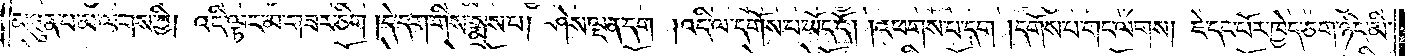མཐུན་པ་མ་ལགས་ཀྱི། འདི་ལྟར་མ་གཟར་ཅིག །དེ་དག་གིས་སྨྲས་པ། ཤེས་ལྡན་དག །འདི་ལ་དགོས་པ་ཡོད་དོ། །འཕགས་པ་དག །དགོས་པ་གང་ལགས། ཇེ་དང་པོར་ཁྱེད་ཅག་ཉིད་མི་
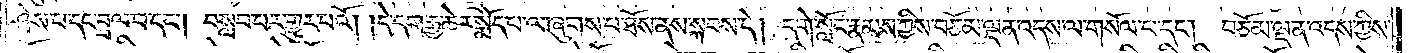ཤེས་པ་དང་བྲལ་བ་དང༌། བསླབ་པར་གྱུར་པའོ། །དེ་དག་རྒྱ་ཆེར་སྨོད་པ་ལ་ཞུགས་པ་ཐོས་ནས་སྐབས་དེ། དགེ་སློང་རྣམས་ཀྱིས་བཅོམ་ལྡན་འདས་ལ་གསོལ་པ་དང༌། བཅོམ་ལྡན་འདས་ཀྱིས་
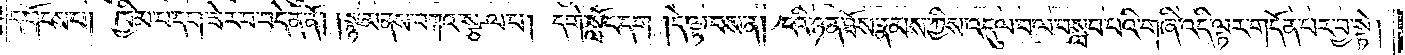དགོངས་པ། ཁྱིམ་པ་དག་ཟེར་བ་བདེན་ནོ། །སྙམ་ནས་བཀའ་སྩལ་པ། དགེ་སློང་དག །དེ་ལྟ་བས་ན། ངའི་ཉན་ཐོས་རྣམས་ཀྱིས་འདུལ་བ་ལ་བསླབ་པའི་གཞི་འདི་ལྟར་གདོན་པར་བྱ་སྟེ།
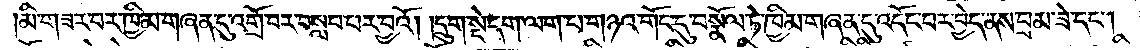མི་གཟར་བར་ཁྱིམ་གཞན་དུ་འགྲོ་བར་བསླབ་པར་བྱའོ། །དྲུག་སྡེ་དག་ལག་པ་གཉའ་གོང་དུ་བསྣོལ་ཏེ་ཁྱིམ་གཞན་དུ་འདོང་བར་བྱེད་ནས་བྲམ་ཟེ་དང༌།
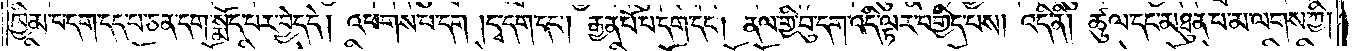ཁྱིམ་བདག་དད་པ་ཅན་དག་སྨོད་པར་བྱེད་དེ། འཕགས་པ་དག །དྭ་དག་དང༌། རྒྱན་པོ་པ་དག་དང༌། ནལ་གྱི་བུ་དག་འདི་ལྟར་བགྱིད་པས། འདི་ནི། ཚུལ་དང་མཐུན་པ་མ་ལགས་ཀྱི།
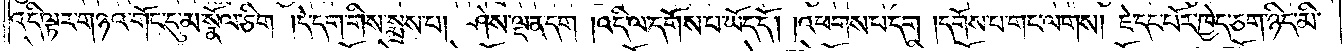འདི་ལྟར་གཉའ་གོང་དུ་མ་སྣོལ་ཅིག །དེ་དག་གིས་སྨྲས་པ། ཤེས་ལྡན་དག །འདི་ལ་དགོས་པ་ཡོད་དོ། །འཕགས་པ་དག །དགོས་པ་གང་ལགས། ཇེ་དང་པོར་ཁྱེད་ཅག་ཉིད་མི་
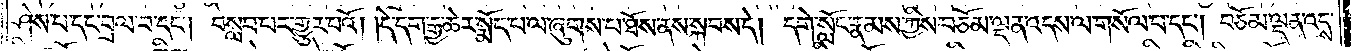ཤེས་པ་དང་བྲལ་བ་དང༌། བསླབ་པར་གྱུར་པའོ། །དེ་དག་རྒྱ་ཆེར་སྨོད་པ་ལ་ཞུགས་པ་ཐོས་ནས་སྐབས་དེ། དགེ་སློང་རྣམས་ཀྱིས་བཅོམ་ལྡན་འདས་ལ་གསོལ་པ་དང༌། བཅོམ་ལྡན་འདས་
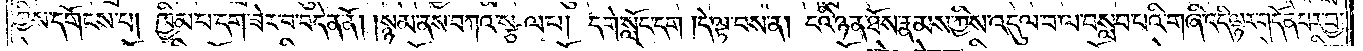ཀྱིས་དགོངས་པ། ཁྱིམ་པ་དག་ཟེར་བ་བདེན་ནོ། །སྙམ་ནས་བཀའ་སྩལ་པ། དགེ་སློང་དག །དེ་ལྟ་བས་ན། ངའི་ཉན་ཐོས་རྣམས་ཀྱིས་འདུལ་བ་ལ་བསླབ་པའི་གཞི་འདི་ལྟར་གདོན་པར་བྱ་
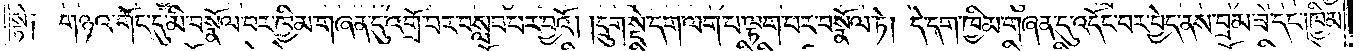སྟེ༑ གཉའ་གོང་དུ་མི་བསྣོལ་བར་ཁྱིམ་གཞན་དུ་འགྲོ་བར་བསླབ་པར་བྱའོ། །དྲུག་སྡེ་དག་ལག་པ་ལྟག་པར་བསྣོལ་ཏེ། དེ་དག་ཁྱིམ་གཞན་དུ་འདོང་བར་བྱེད་ནས་བྲམ་ཟེ་དང༌། ཁྱིམ་
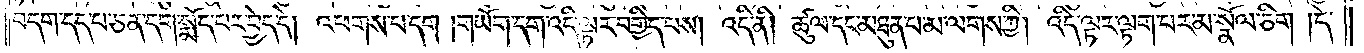བདག་དད་པ་ཅན་དག་སྨོད་པར་བྱེད་དེ། འཕགས་པ་དག །གཡོག་དག་འདི་ལྟར་བགྱིད་པས། འདི་ནི། ཚུལ་དང་མཐུན་པ་མ་ལགས་ཀྱི། འདི་ལྟར་ལྟག་པར་མ་སྣོལ་ཅིག །དེ་
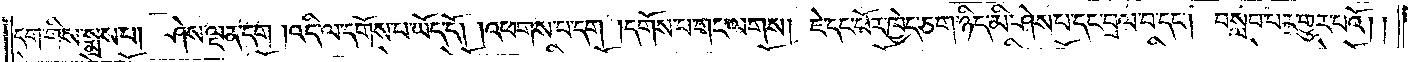དག་གིས་སྨྲས་པ། ཤེས་ལྡན་དག །འདི་ལ་དགོས་པ་ཡོད་དོ། །འཕགས་པ་དག །དགོས་པ་གང་ལགས། ཇེ་དང་པོར་ཁྱེད་ཅག་ཉིད་མི་ཤེས་པ་དང་བྲལ་བ་དང༌། བསླབ་པར་གྱུར་པའོ། །
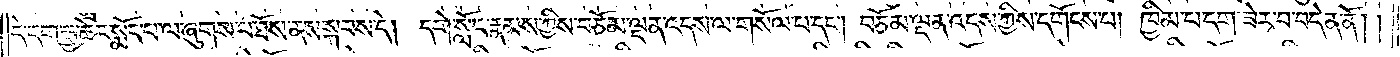དེ་དག་རྒྱ་ཆེར་སྨོད་པ་ལ་ཞུགས་པ་ཐོས་ནས་སྐབས་དེ། དགེ་སློང་རྣམས་ཀྱིས་བཅོམ་ལྡན་འདས་ལ་གསོལ་པ་དང༌། བཅོམ་ལྡན་འདས་ཀྱིས་དགོངས་པ། ཁྱིམ་པ་དག་ཟེར་བ་བདེན་ནོ། །
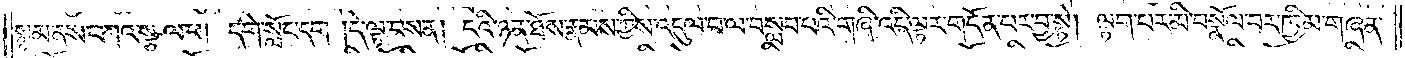སྙམ་ནས་བཀའ་སྩལ་པ། དགེ་སློང་དག །དེ་ལྟ་བས་ན། ངའི་ཉན་ཐོས་རྣམས་ཀྱིས་འདུལ་བ་ལ་བསླབ་པའི་གཞི་འདི་ལྟར་གདོན་པར་བྱ་སྟེ། ལྟག་པར་མི་བསྣོལ་བར་ཁྱིམ་གཞན་
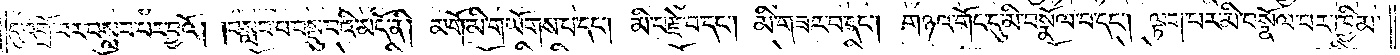དུ་འགྲོ་བར་བསླབ་པར་བྱའོ། །བསླབ་པ་བསྡུ་བའི་མདོ་ནི། མགོ་མི་གཡོགས་པ་དང༌། མི་བརྫེ་བ་དང༌། མི་གཟར་བ་དང༌། གཉའ་གོང་དུ་མི་བསྣོལ་བ་དང༌། ལྟག་པར་མི་བསྣོལ་བར་ཁྱིམ་
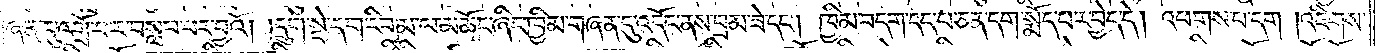གཞན་དུ་འགྲོ་བར་བསླབ་པར་བྱའོ། །དྲུག་སྡེ་དག་རིབ་མ་ལ་མཆོང་ཞིང་ཁྱིམ་གཞན་དུ་འདོང་ནས་བྲམ་ཟེ་དང༌། ཁྱིམ་བདག་དད་པ་ཅན་དག་སྨོད་པར་བྱེད་དེ། འཕགས་པ་དག །འཇིགས་
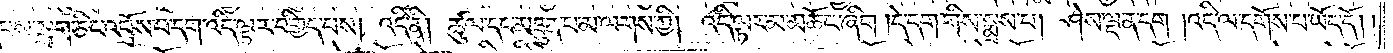པས་སྐྲག་ཅིང་འབྲོས་པ་དག་འདི་ལྟར་བགྱིད་པས། འདི་ནི། ཚུལ་དང་མཐུན་པ་མ་ལགས་ཀྱི། འདི་ལྟར་མ་མཆོང་ཞིག །དེ་དག་གིས་སྨྲས་པ། ཤེས་ལྡན་དག །འདི་ལ་དགོས་པ་ཡོད་དོ། །
